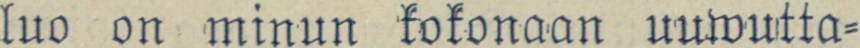luo on minun kokonaan uuwutta-
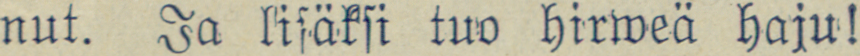nut. Ja lisäksi tuo hirweä haju!
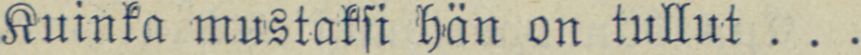Kuinka mustaksi hän on tullut . . .
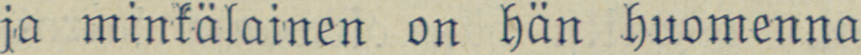ja minkälainen on hän huomenna
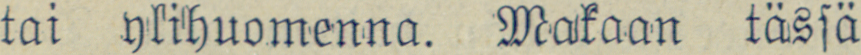tai ylihuomenna. Makaan tässä
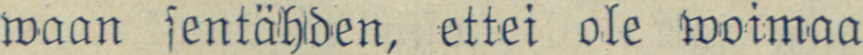waan sentähden, ettei ole woimaa
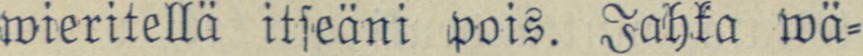wieritellä itseäni pois. Jahka wä-
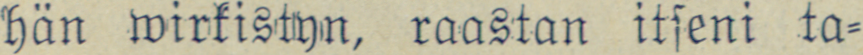hän wirkistyn, raastan itseni ta-
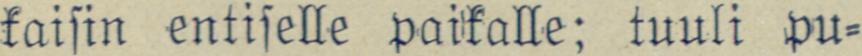kaisin entiselle paikalle; tuuli pu-
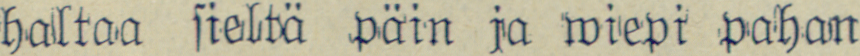haltaa sieltä päin ja wiepi pahan
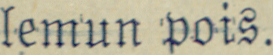lemun pois.
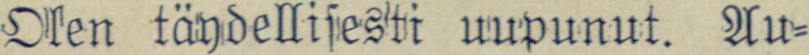Olen täydellisesti uupunut. Au-
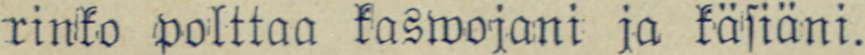rinko polttaa kaswojani ja käsiäni.
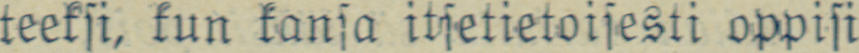teeksi, kun kansa itsetietoisesti oppisi
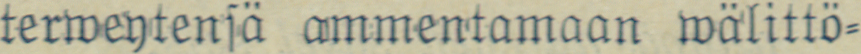terweytensä ammentamaan wälittö-
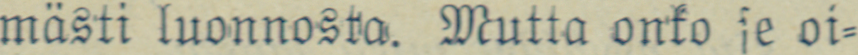mästi luonnosta. Mutta onko se oi-
